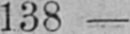138
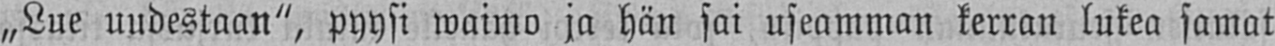„Lue uudestaan", pyysi waimo ja hän sai useamman kerran lukea samat
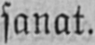sanat.
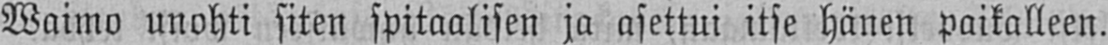Waimo unohti siten spitaalisen ja asettui itse hänen paikalleen.
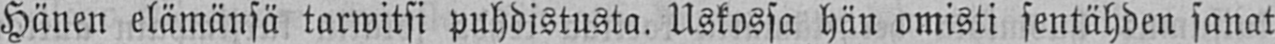Hänen elämänsä tarwitsi puhdistusta. Uskossa hän omisti sentähden sanat
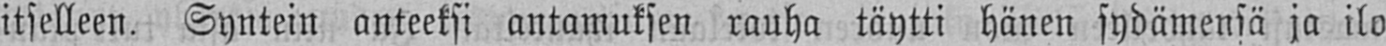itselleen. Syntein anteeksi antamuksen rauha täytti hänen sydämensä ja ilo
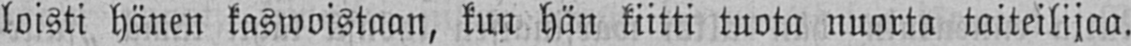loisti hänen kaswoistaan, kun hän kiitti tuota nuorta taiteilijaa.
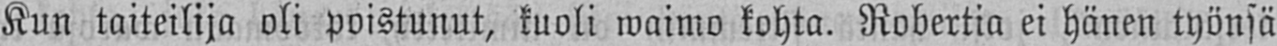Kun taiteilija oli poistunut, kuoli waimo kohta. Robertia ei hänen työnsä
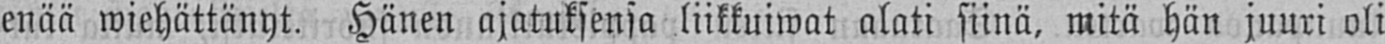enää wiehättänyt. Hänen ajatuksensa liikkuiwat alati siinä, mitä hän juuri oli
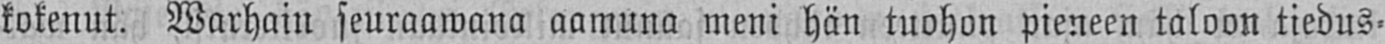kokenut. Warhain seuraawana aamuna meni hän tuohon pieneen taloon tiedus-
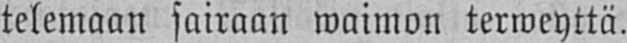telemaan sairaan waimon terweyttä.
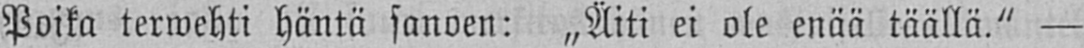Poika terwehti häntä sanoen: „Äiti ei ole enää täällä." —
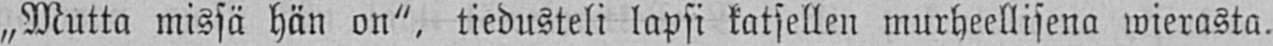„Mutta missä hän on", tiedusteli lapsi katsellen murheellisena wierasta.
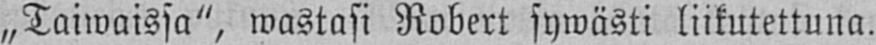„Taiwaissa", wastasi Robert sywästi liikutettuna.
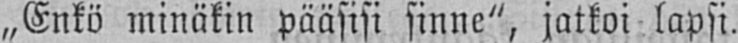„Enkö minäkin pääsisi sinne", jatkoi lapsi.
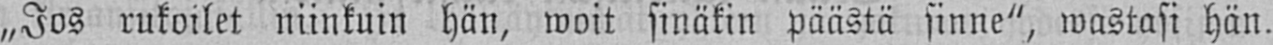„Jos rukoilet niinkuin hän, woit sinäkin päästä sinne", wastasi hän.
